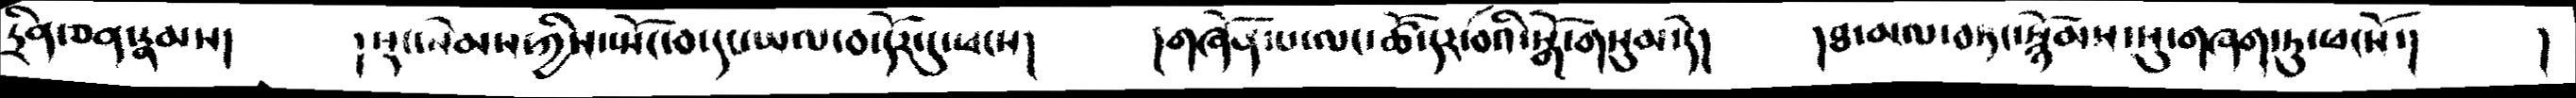ཏྲིན་ཅན་རྣམས།     །སྡང་སེམས་ཀྱིས་སྤོང་བ་དང་ཡལ་བ་དོར་དུ་ཕངས།     །གཞོན་པ་ལང་ཚོ་དར་བའི་སྒོ་གསུམ་དེ།    །ཐ་མལ་བཏང་སྙོམས་སུ་གཞག་ཏུ་ཕངསོ་།    །
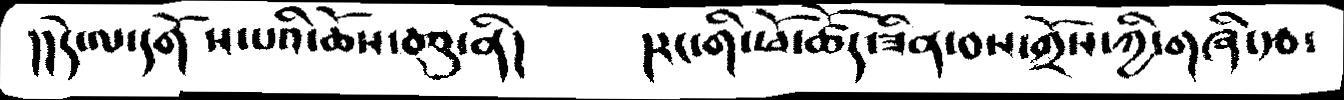།།དེ་ལ་དགོས་པའི་ཆོས་བཅུ་ནི།      །རང་གི་ཕོ་ཚོད་ཟིན་བས་གྲོས་ཀྱི་གཞི་རྩ་
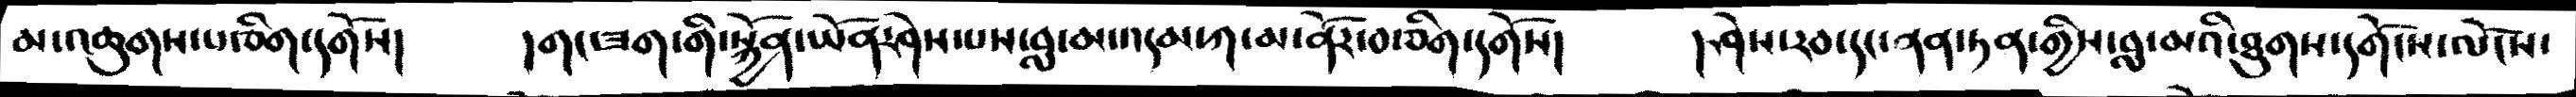མ་འཆུགས་པ་ཅིག་དགོས།    །གང་ཟག་གི་སྐྱོན་ཡོན་ཤེས་པས་བླ་མ་འདམ་ཀ་མ་ནོར་བ་ཅིག་དགོས།    །ཤེས་རབ་དང་ནན་ཏན་གྱིས་བླ་མའི་ཐུགས་དགོངས་ལོངས་
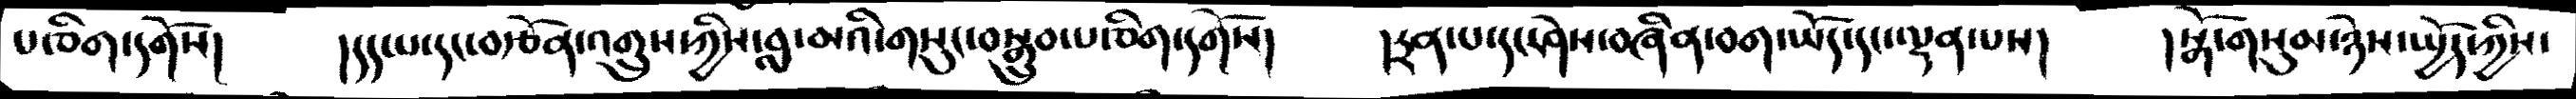པ་ཅིག་དགོས།     །དད་པ་དང་བརྩོན་འགྲུས་ཀྱིས་བླ་མའི་གསུང་བསྒྲུབ་པ་ཅིག་དགོས།     །ཏྲན་པ་དང་ཤེས་བཞིན་བག་ཡོད་དང་ལྡན་པས།   །སྒོ་གསུམ་ཉེས་ཡྱོད་ཀྱིས་
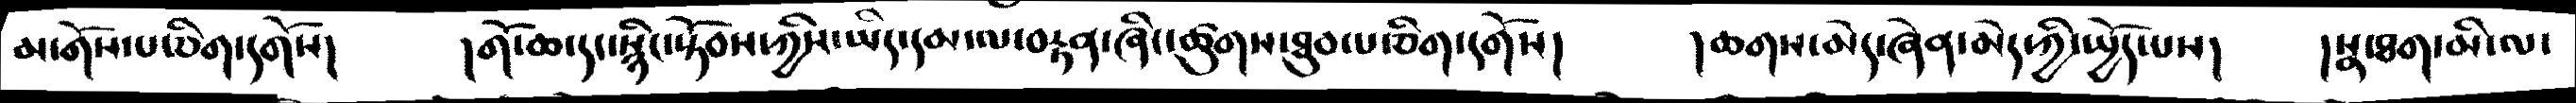མ་གོས་པ་ཅིག་དགོས།    །གོ་ཆ་དང་སྙིང་སྟོབས་ཀྱིས་ཡིད་དམ་ལ་བརྟན་ཞིང་ཚུགས་ཐུབ་པ་ཅིག་དགོས།    །ཆགས་མེད་ཞེན་མེད་ཀྱི་ཡྱོད་པས།    །སྣ་ཐག་མི་ལ་
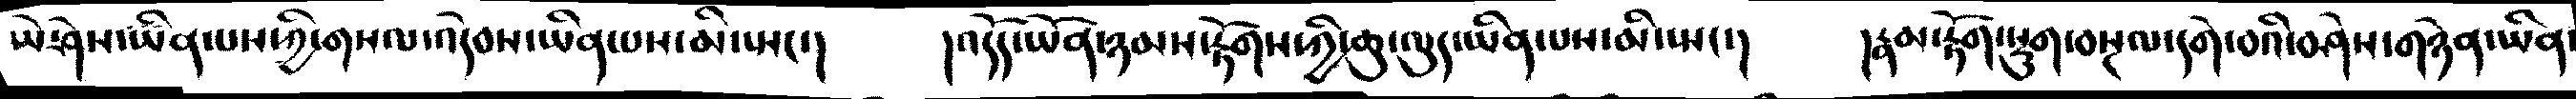ཡེ་ཤེས་ཡིན་པས་ཀྱི་གསལ་འདེབས་ཡིན་པས་མི་སྤང་།  །འདོད་ཡོན་ཉམས་རྟོགས་ཀྱི་ཆུ་ལུད་ཡིན་པས་སྤང་།  །རྣམ་རྟོག་སྡུག་བསྔལ་དགེ་བའི་བཤེས་གཉེན་ཡིན་
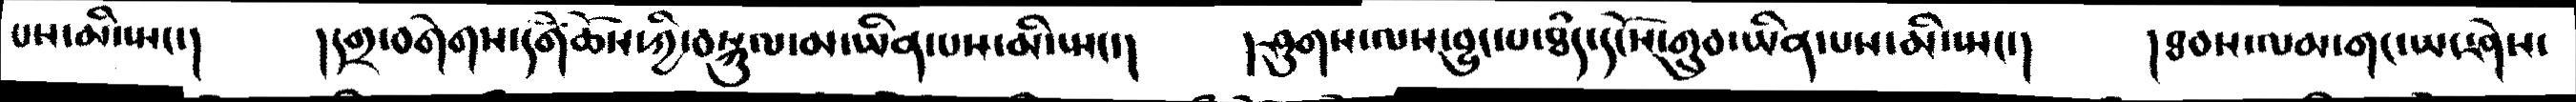པས་མི་སྤང་།  །དགྲ་བགེགས་དགེ་ཆོས་ཀྱི་བསྐུལ་མ་ཡིན་པས་མི་སྤང་།  །ཤུགས་ལས་བྱུང་པ་ཐཾད་དངོས་གྲུབ་ཡིན་པས་མི་སྤང་།  །ཐབས་ལམ་གང་ཡང་ཤེས་
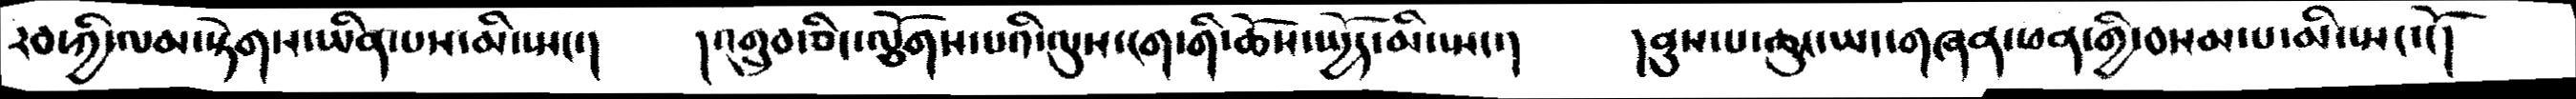རབ་ཀྱི་ལམ་སྟེགས་ཡིན་པས་མི་སྤང་།  །འགྲུབ་ཅིང་ལྕོགས་པའི་ལུས་ངག་གི་ཆོས་སྤྱོད་མི་སྤང་།  །ནུས་པ་ཆུང་ཡང་གཞན་ཕན་གྱི་བསམ་པ་མི་སྤང་ངོ།
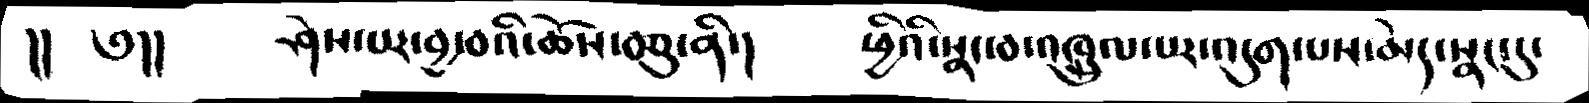།།   ༅།།   ཤེས་པར་བྱ་བའི་ཆོས་བཅུ་ནི་།  ཕྱིའི་སྣང་བ་འཁྲུལ་པར་འདུག་པས་མེད་སྣང་དུ་
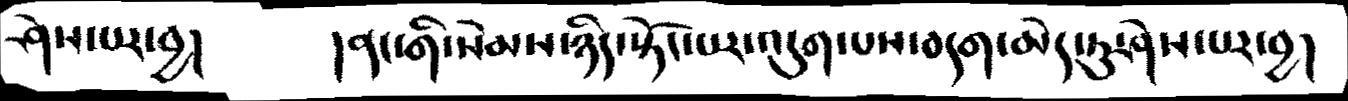ཤེས་པར་བྱ།  །ནང་གི་སེམས་ཉིད་སྟོང་པར་འདུག་པས་བདག་མེད་ཏུ་ཤེས་པར་བྱ།
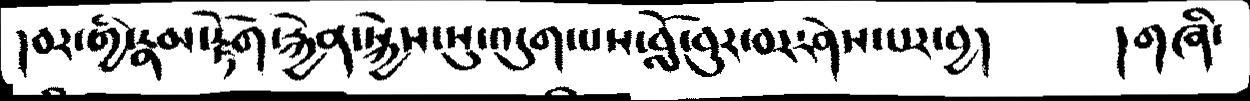།བར་གྱི་རྣམ་རྟོག་རྐྱེན་སྐྱེས་སུ་འདུག་པས་བློ་བུར་བར་ཤེས་པར་བྱ།  །གཞི་
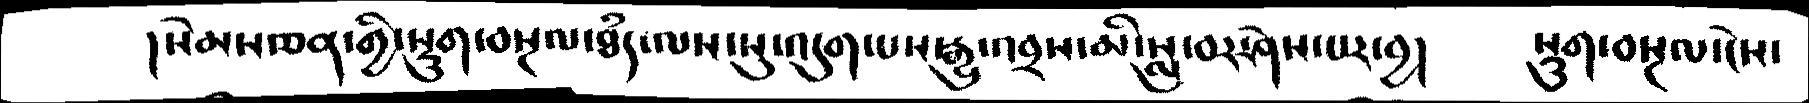།སེམས་ཅན་གྱི་སྡུག་བསྔལ་ཐཾད་ལས་སུ་འདུག་པས་རྒྱུ་འབྲས་མི་བསླུ་བར་ཤེས་པར་བྱ།  སྡུག་བསྔལ་ངེས་
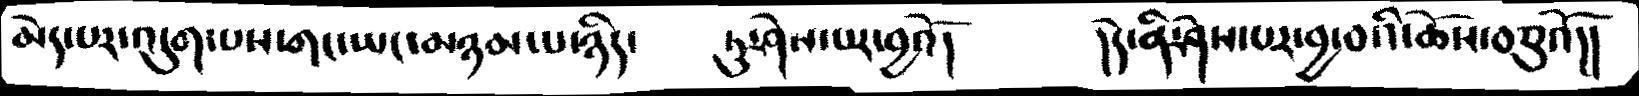མེད་པར་འདུག་པས་གང་ཡང་མཉཥ་པ་ཉིད་   ཏུ་ཤེས་པར་བྱའོ།  །དེ་ནི་ཤེས་པར་བྱ་བའི་ཆོས་བཅུའོ།།
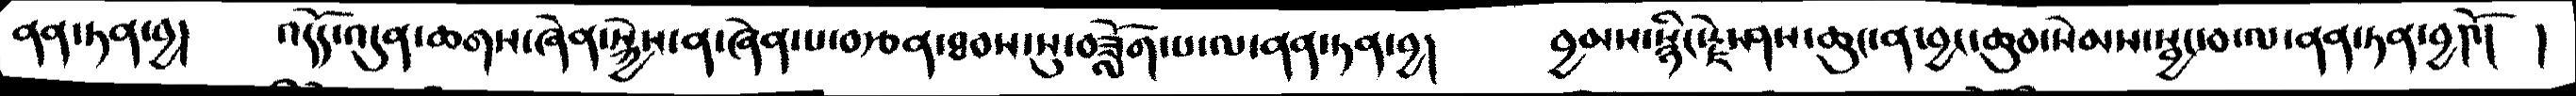ནན་ཏན་བྱ།  འདོད་འདུན་ཆགས་ཞེན་སྐྱེས་ན་ཞེན་པ་བརྩན་ཐབས་སུ་བཟློག་པ་ལ་ནན་ཏན་བྱ།  བྱམས་སྙིང་རྗེ་ཤས་ཆུང་ན་བྱང་སེམས་སྦྱང་བ་ལ་ནན་ཏན་བྱའོ་།  །
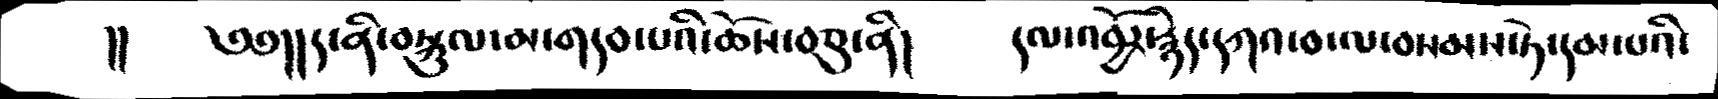།།     ༅༅།། ད་ནི་བསྐུལ་མ་གདབ་པའི་ཆོས་བཅུ་ནི།     དལ་འབྱོར་རྙེད་དཀའ་བ་ལ་བསམས་ཏེ་དམ་པའི་
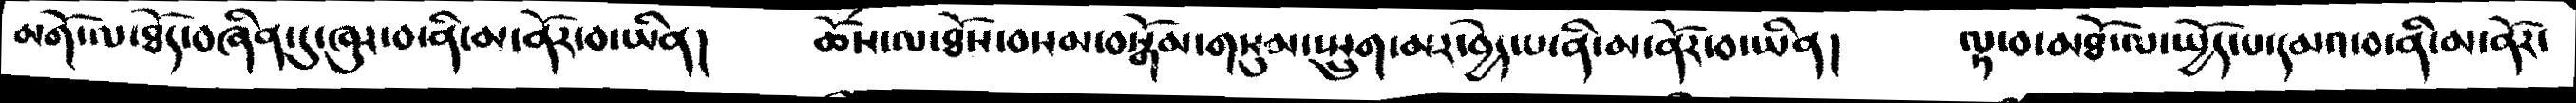མགོ་ལ་ཐོད་བཞིན་དུ་ཁུར་བ་ནི་མ་ནོར་བ་ཡིན།  ཆོས་ལ་ཐོས་བསམ་བསྒོམ་གསུམ་སྤྲུག་མར་བྱེད་པ་ནི་མ་ནོར་བ་ཡིན།  ལྟ་བ་མཐོ་ལ་སྤྱོད་པ་དམའ་བ་ནི་མ་ནོར་
